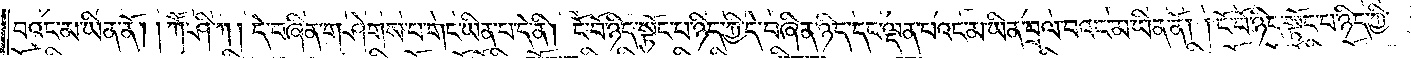བའང་མ་ཡིན་ནོ། །ཀཽ་ཤི་ཀ། དེ་བཞིན་གཤེགས་པ་གང་ཡིན་པ་དེ་ནི། ངོ་བོ་ཉིད་སྟོང་པ་ཉིད་ཀྱི་དེ་བཞིན་ཉིད་དང་ལྡན་པའང་མ་ཡིན་བྲལ་བའང་མ་ཡིན་ནོ། །ངོ་བོ་ཉིད་སྟོང་པ་ཉིད་ཀྱི་
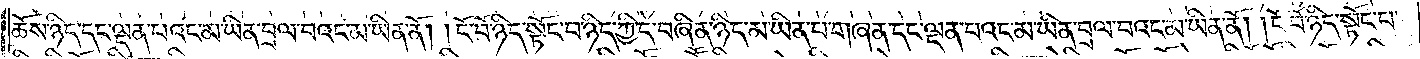ཆོས་ཉིད་དང་ལྡན་པའང་མ་ཡིན་བྲལ་བའང་མ་ཡིན་ནོ། །ངོ་བོ་ཉིད་སྟོང་པ་ཉིད་ཀྱི་དེ་བཞིན་ཉིད་མ་ཡིན་པ་གཞན་དང་ལྡན་པའང་མ་ཡིན་བྲལ་བའང་མ་ཡིན་ནོ། །ངོ་བོ་ཉིད་སྟོང་པ་
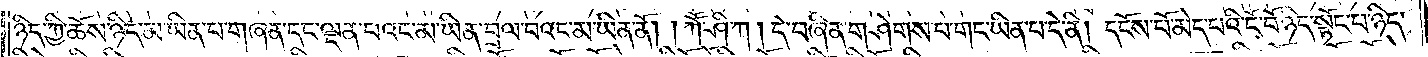ཉིད་ཀྱི་ཆོས་ཉིད་མ་ཡིན་པ་གཞན་དང་ལྡན་པའང་མ་ཡིན་བྲལ་བའང་མ་ཡིན་ནོ། །ཀཽ་ཤི་ཀ། དེ་བཞིན་གཤེགས་པ་གང་ཡིན་པ་དེ་ནི། དངོས་པོ་མེད་པའི་ངོ་པོ་ཉིད་སྟོང་པ་ཉིད་
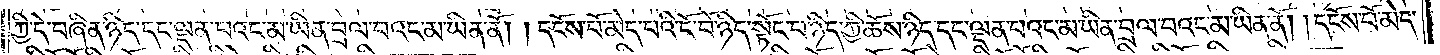ཀྱི་དེ་བཞིན་ཉིད་དང་ལྡན་པའང་མ་ཡིན་བྲལ་བའང་མ་ཡིན་ནོ། །དངོས་པོ་མེད་པའི་ངོ་བོ་ཉིད་སྟོང་པ་ཉིད་ཀྱི་ཆོས་ཉིད་དང་ལྡན་པའང་མ་ཡིན་བྲལ་བའང་མ་ཡིན་ནོ། །དངོས་པོ་མེད་
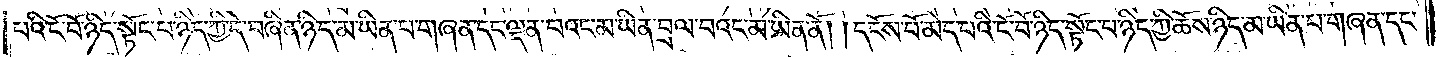པའི་ངོ་བོ་ཉིད་སྟོང་པ་ཉིད་ཀྱི་དེ་བཞིན་ཉིད་མ་ཡིན་པ་གཞན་དང་ལྡན་པའང་མ་ཡིན་བྲལ་བའང་མ་ཡིན་ནོ། །དངོས་པོ་མེད་པའི་ངོ་བོ་ཉིད་སྟོང་པ་ཉིད་ཀྱི་ཆོས་ཉིད་མ་ཡིན་པ་གཞན་དང་
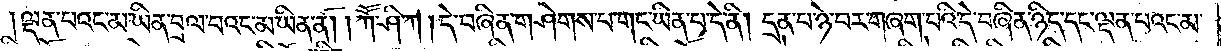ལྡན་པའང་མ་ཡིན་བྲལ་བའང་མ་ཡིན་ནོ། །ཀཽ་ཤི་ཀ །དེ་བཞིན་གཤེགས་པ་གང་ཡིན་པ་དེ་ནི། །དྲན་པ་ཉེ་བར་གཞག་པའི་དེ་བཞིན་ཉིད་དང་ལྡན་པའང་མ་
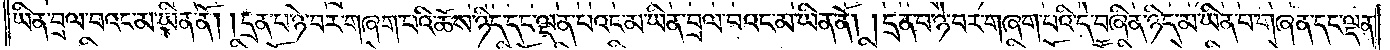ཡིན་བྲལ་བའང་མ་ཡིན་ནོ། །དྲན་པ་ཉེ་བར་བཞག་པའི་ཆོས་ཉིད་དང་ལྡན་པའང་མ་ཡིན་བྲལ་བའང་མ་ཡིན་ནོ། །དྲན་པ་ཉེ་བར་གཞག་པའི་དེ་བཞིན་ཉིད་མ་ཡིན་པ་གཞན་དང་ལྡན་
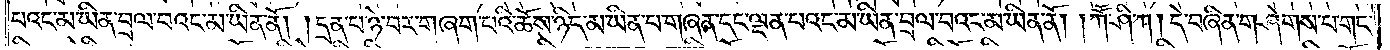པའང་མ་ཡིན་བྲལ་བའང་མ་ཡིན་ནོ། །དྲན་པ་ཉེ་བར་གཞག་པའི་ཆོས་ཉིད་མ་ཡིན་པ་གཞན་དང་ལྡན་པའང་མ་ཡིན་བྲལ་བའང་མ་ཡིན་ནོ། །ཀཽ་ཤི་ཀ། དེ་བཞིན་གཤེགས་པ་གང་
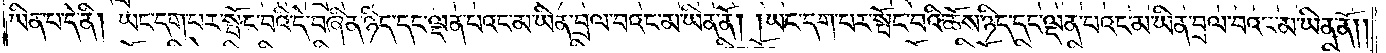ཡིན་པ་དེ་ནི། ཡང་དག་པར་སྤོང་བའི་དེ་བཞིན་ཉིད་དང་ལྡན་བའང་མ་ཡིན་བྲལ་བའང་མ་ཡིན་ནོ། །ཡང་དག་པར་སྤོང་བའི་ཆོས་ཉིད་དང་ལྡན་པའང་མ་ཡིན་བྲལ་བའང་མ་ཡིན་ནོ༎
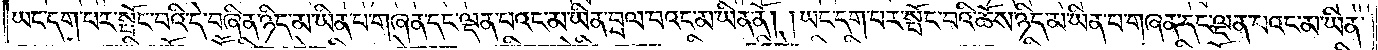ཡང་དག་པར་སྤོང་བའི་དེ་བཞིན་ཉིད་མ་ཡིན་པ་གཞན་དང་ལྡན་པའང་མ་ཡིན་བྲལ་བའང་མ་ཡིན་ནོ། །ཡང་དག་པར་སྤོང་བའི་ཆོས་ཉིད་མ་ཡིན་པ་གཞན་དང་ལྡན་པའང་མ་ཡིན་
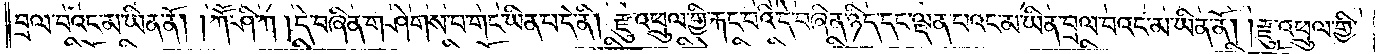བྲལ་བའང་མ་ཡིན་ནོ༎ཀཽ་ཤི་ཀ །དེ་བཞིན་གཤེགས་པ་གང་ཡིན་པ་དེ་ནི། རྫུ་འཕྲུལ་གྱི་རྐང་པའི་དེ་བཞིན་ཉིད་དང་ལྡན་པའང་མ་ཡིན་བྲལ་བའང་མ་ཡིན་ནོ། །རྫུ་འཕྲུལ་གྱི་
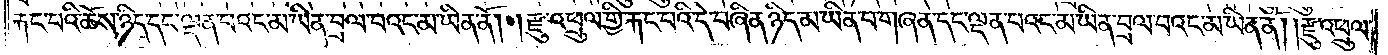རྐང་པའི་ཆོས་ཉིད་དང་ལྡན་པའང་མ་ཡིན་བྲལ་བའང་མ་ཡིན་ནོ། །རྫུ་འཕྲུལ་གྱི་རྐང་པའི་དེ་བཞིན་ཉིད་མ་ཡིན་པ་གཞན་དང་ལྡན་པའང་མ་ཡིན་བྲལ་བའང་མ་ཡིན་ནོ། །རྫུ་འཕྲུལ་
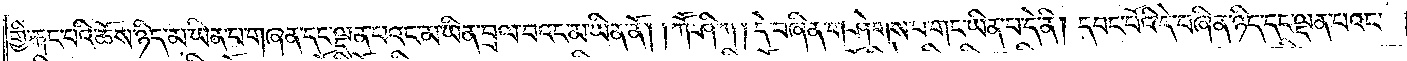གྱི་རྐང་པའི་ཆོས་ཉིད་མ་ཡིན་པ་གཞན་དང་ལྡན་པའང་མ་ཡིན་བྲལ་བའང་མ་ཡིན་ནོ། །ཀཽ་ཤི་ཀ། དེ་བཞིན་གཤེགས་པ་གང་ཡིན་པ་དེ་ནི། དབང་པོའི་དེ་བཞིན་ཉིད་དང་ལྡན་པའང་
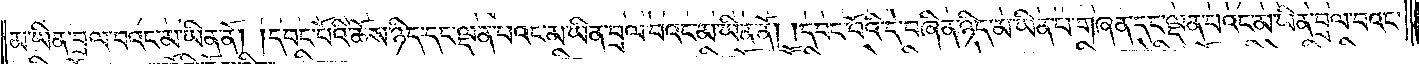མ་ཡིན་བྲལ་བའང་མ་ཡིན་ནོ། །དབང་པོའི་ཆོས་ཉིད་དང་ལྡན་པའང་མ་ཡིན་བྲལ་བའང་མ་ཡིན་ནོ། །དབང་པོའི་དེ་བཞིན་ཉིད་མ་ཡིན་པ་གཞན་དང་ལྡན་པའང་མ་ཡིན་བྲལ་བའང་
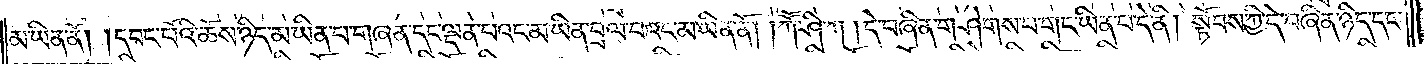མ་ཡིན་ནོ། །དབང་པོའི་ཆོས་ཉིད་མ་ཡིན་བ་གཞན་དང་ལྡན་པའང་མ་ཡིན་བྲལ་བའང་མ་ཡིན་ནོ། །ཀཽ་ཤི་ཀ །དེ་བཞིན་གཤེགས་པ་གང་ཡིན་པ་དེ་ནི། སྟོབས་ཀྱི་དེ་བཞིན་ཉིད་དང་
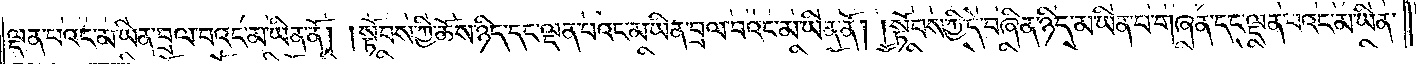ལྡན་པའང་མ་ཡིན་བྲལ་བའང་མ་ཡིན་ནོ། །སྟོབས་ཀྱི་ཆོས་ཉིད་དང་ལྡན་པའང་མ་ཡིན་བྲལ་བའང་མ་ཡིན་ནོ། །སྟོབས་ཀྱི་དེ་བཞིན་ཉིད་མ་ཡིན་པ་གཞན་དང་ལྡན་པའང་མ་ཡིན་
